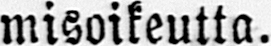misoikeutta.
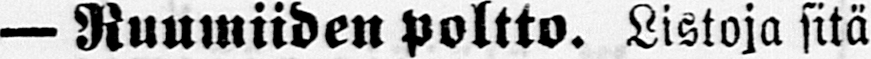— Ruumiiden poltto. Listoja sitä
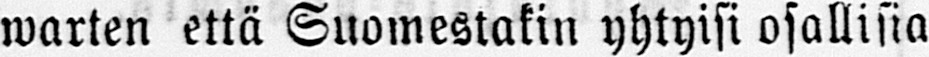warten että Suomestakin yhtyisi osallisia
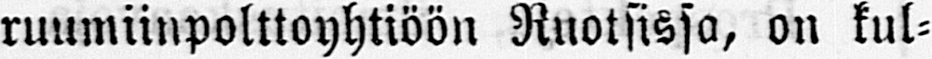ruumiinpolttoyhtiöön Ruotsissa, on kul-
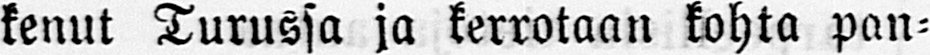kenut Turussa ja kerrotaan kohta pan-
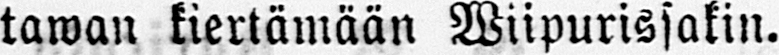tawan kiertämään Wiipurissakin.
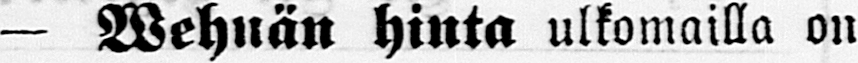— Weh nä n hinta ulkomailla on
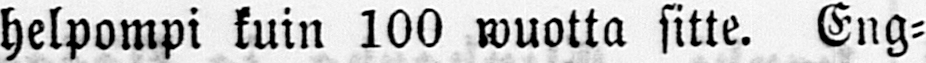helpompi kuin 100 wuotta sitte. Eng-
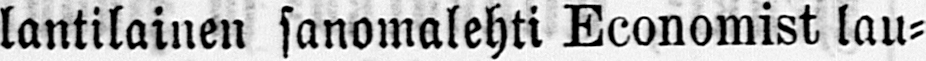lantilainen sanomalehti Economist lau-
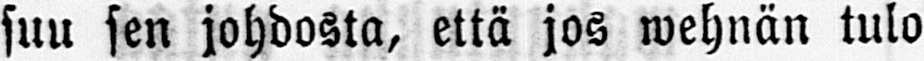suu sen johdosta, että jos wehnän tulo
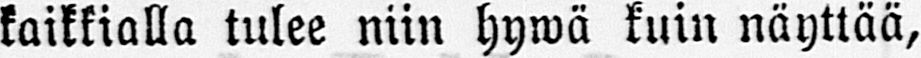kaikkialla tulee niin hywä kuin näyttää,
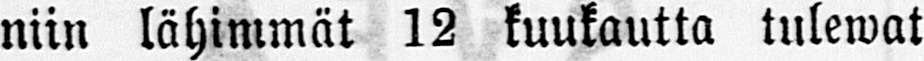niin lähimmät 12 kuukautta tulewat
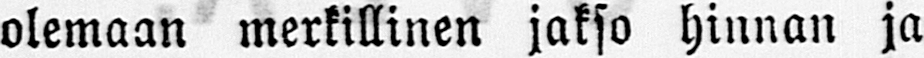olemaan merkillinen jakso hinnan ja
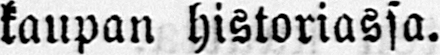kaupan historiassa.
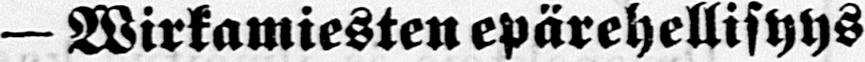— Wirkamiesten epärehellisyys
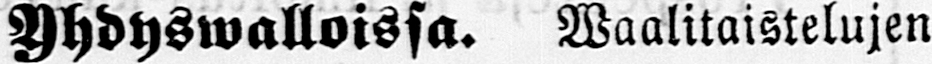Yhdyswalloissa. Waalitaistelujen
